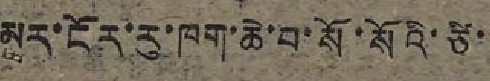མར་ངོར་རུ་ཁག་ཆེ་བ་སོ་སོའི་ཙི་
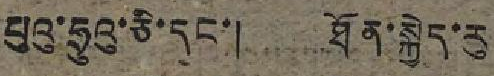པུའུ་ཧྲུའུ་ཅི་དང་། ཐོན་སྐྱེད་རུ
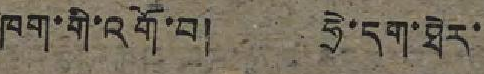ཁག་གི་འགོ་བ། ཧྲེ་དག་ཐེར་
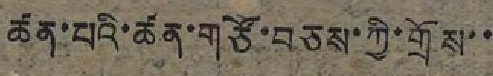ཚན་པའི་ཚན་གཙོ་བཅས་ཀྱི་གྲོས་་
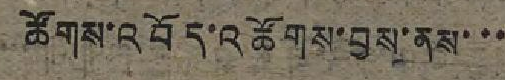ཚོགས་འབོད་འཚོགས་བྱས་ནས་་་
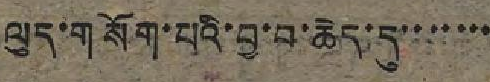ལུད་གསོག་པའི་བྱ་བ་ཆེད་དུ་་་་་་་
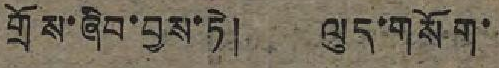གྲོས་ཞིབ་བྱས་ཏེ། ལུད་གསོག་
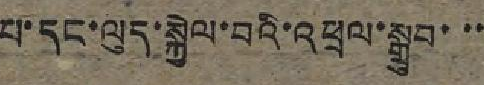པ་དང་ལུད་སྐྱེལ་བའི་འཕྲལ་སྒྲུབ་་་
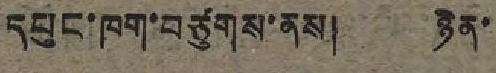དཔུང་ཁག་བཙུགས་ནས། ཉིན་
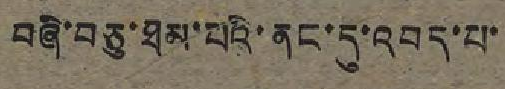བཞི་བཅུ་ཐམ་པའི་ནང་དུ་འབད་པ་
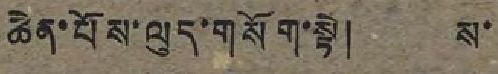ཆེན་པོས་ལུད་གསོག་སྟེ། ས་
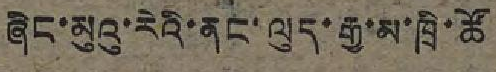ཞིང་མུའུ་རེའི་ནང་ལུད་རྒྱ་མ་ཁྲི་ཚོ
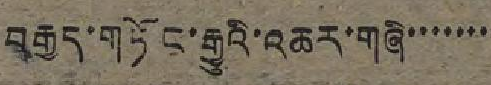བརྒྱད་གཏོང་རྒྱུའི་འཆར་གཞི་་་་་་་
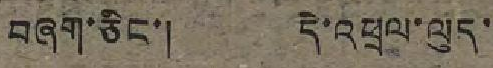བཞག་ཅིང་། དེ་འཕྲལ་ལུད་
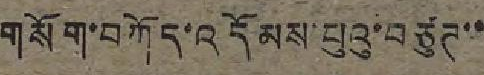གསོག་བཀོད་འདོམས་པུའུ་བཙུཊ་་
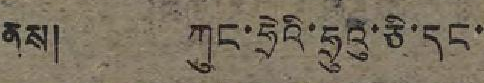ནས། ཀུང་ཧྲེའི་ཧྲུའུ་ཅི་དང་
